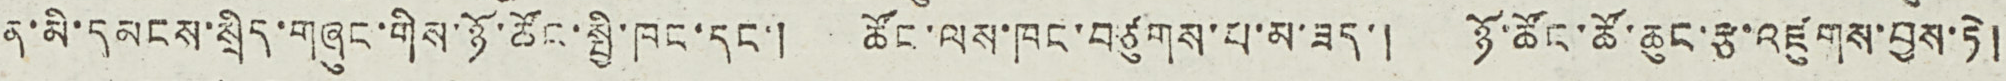ན་མི་དམངས་སྲིད་གཞུང་གིས་ཉོ་ཚོང་སྤྱི་ཁང་དང་། ཚོང་ལས་ཁང་བཙུགས་པ་མ་ཟད་། ཉོ་ཚོང་ཚོ་ཆུང་རྩ་འཛུགས་བྱས་ཏེ།
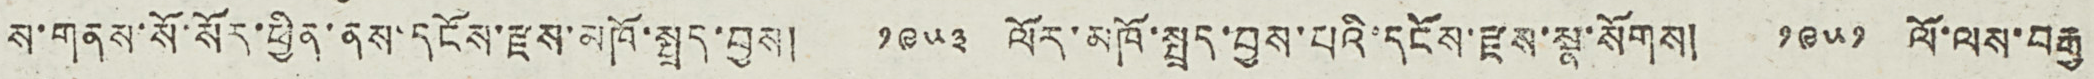ས་གནས་སོ་སོར་ཕྱིན་ནས་དངོས་རྫས་མཁོ་སྤྲད་བྱས། ༡༩༥༣ ལོར་མཁོ་སྤྲད་བྱས་པའི་དངོས་རྫས་སྣ་སོགས། ༡༩༥༡ ལོ་ལས་བརྒྱ
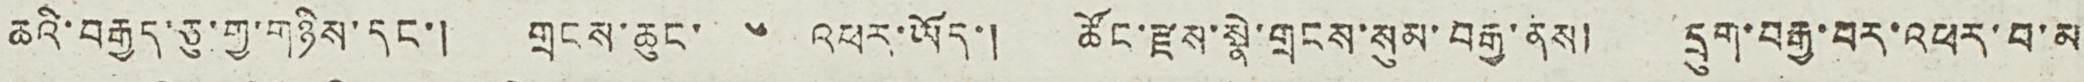ཆའི་བརྒྱད་ཅུ་གྱ་གཉིས་དང་། གྲངས་ཆུང་ ༦ འཕར་ཡོད་། ཚོང་རྫས་སྣེ་གྲངས་སུམ་བརྒྱ་ནས། དྲུག་བརྒྱ་བར་འཕར་བ་མ
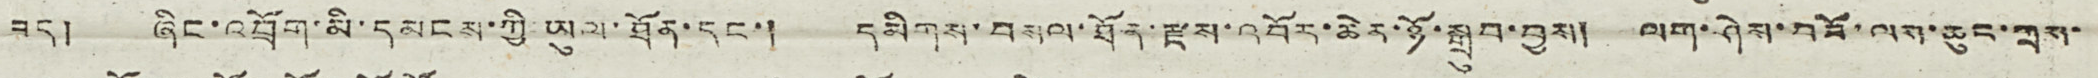ཟད། ཞིང་འབྲོག་མི་དམངས་ཀྱི་ཡུལ་ཐོན་དང་། དམིགས་བསལ་ཐོན་རྫས་འབོར་ཆེར་ཉོ་སྒྲུབ་བྱས། ལག་ཤེས་བཟོ་ལས་ཆུང་ཀྲས་
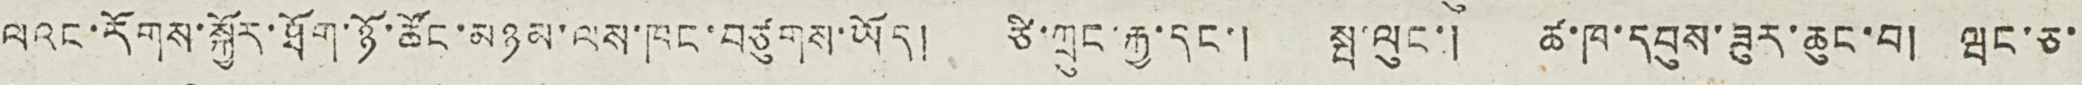ལའང་རོགས་སྐྱོར་ཐོག་ཉོ་ཚོང་མཉམ་ལས་ཁང་བཙུགས་ཡོད། ཙི་ཀྲུང་རྒྱ་དང་། སྤ་ལུང་། ཚ་ཁ་དབུས་ཟུར་ཆུང་བ། ཝང་ཅ་
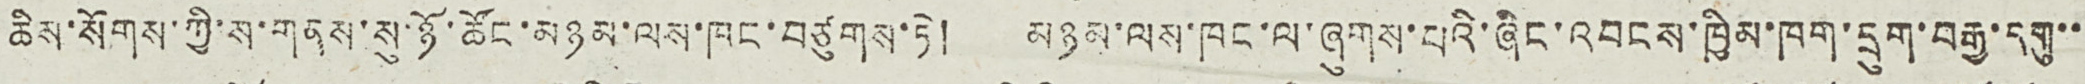ཆིས་སོགས་ཀྱི་ས་གནས་སུ་ཉོ་ཚོང་མཉམ་ལས་ཁང་བཙུགས་ཏེ། མཉམ་ལས་ཁང་ལ་ཞུགས་པའི་ཞིང་འབངས་ཁྱིམ་ཁག་དྲུག་བརྒྱ་དགུ་་
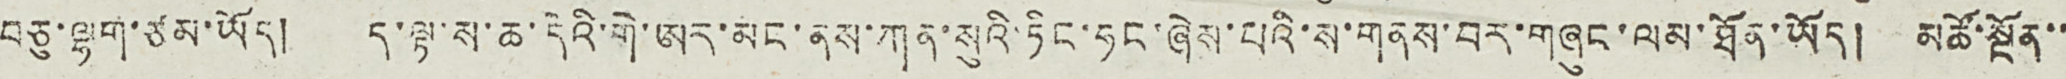བཅུ་ལྷག་ཙམ་ཡོད། ད་ལྟ་ས་ཆ་དེའི་གེ་ཨར་མང་ནས་ཀན་སུའི་ཏིང་ཧང་ཞེས་པའི་ས་གནས་བར་གཞུང་ལམ་ཐོན་ཡོད། མཚོ་སྔོན་་
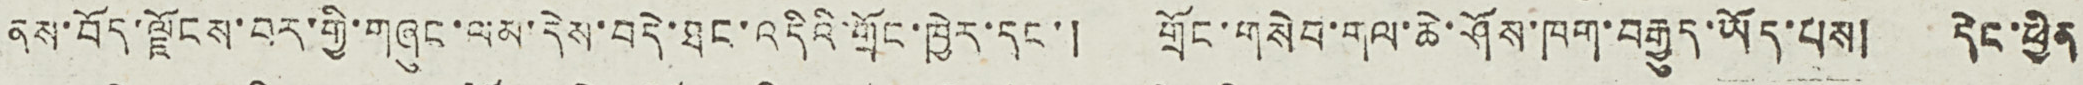ནས་བོད་ལྗོངས་བར་གྱི་གཞུང་ལམ་དེས་བདེ་ཐང་འདིའི་གྲོང་ཁྱེར་དང་། གྲོང་གསེབ་གལ་ཆེ་ཤོས་ཁག་བརྒྱུད་ཡོད་པས། དེང་ཕྱིན
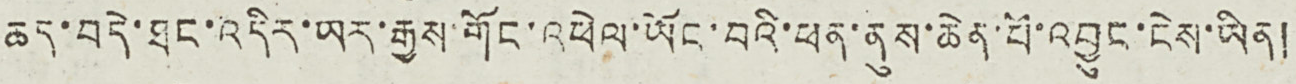ཆད་བདེ་ཐང་འདིར་ཡར་རྒྱས་གོང་འཕེལ་ཡོང་བའི་ཕན་ནུས་ཆེན་པོ་འབྱུང་ངེས་ཡིན།
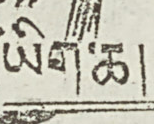ཡིག་ཆ།
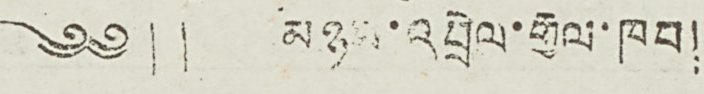༄༅། ། མཉམ་འབྲེལ་རྒྱལ་ཁབ།
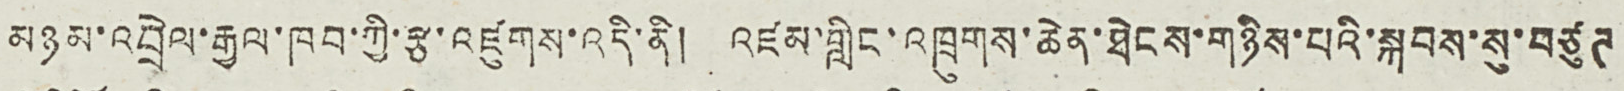མཉམ་འབྲེལ་རྒྱལ་ཁབ་ཀྱི་རྩ་འཛུགས་འདི་ནི། འཛམ་གླིང་འཁྲུགས་ཆེན་ཐེངས་གཉིས་པའི་སྐབས་སུ་བཙུཊ
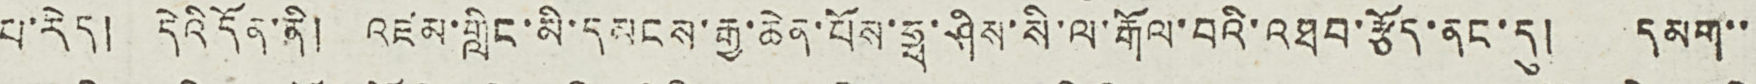པ་རེད། དེའི དོན་ནི། འཛམ་གླིང་མི་དམངས་རྒྱ་ཆེན་པོས་ཧྥ་ཤིས་སི་ལ་རྒོལ་བའི་འཐབ་རྩོད་ནང་དུ། དམག་་
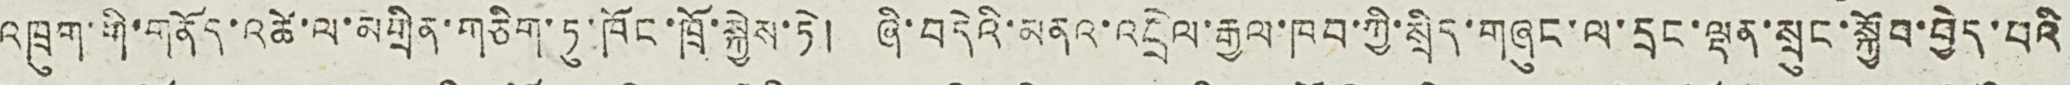འཁྲུག་གི་གནོད་འཚེ་ལ་མགྲིན་གཅིག་ཏུ་ཁོང་ཁྲོ་སྐྱེས་ཏེ། ཞི་བདེའི་མནའ་འབྲེལ་རྒྱལ་ཁབ་ཀྱི་སྲིད་གཞུང་ལ་དྲང་ལྡན་སྲུང་སྐྱོབ་བྱེད་པའི
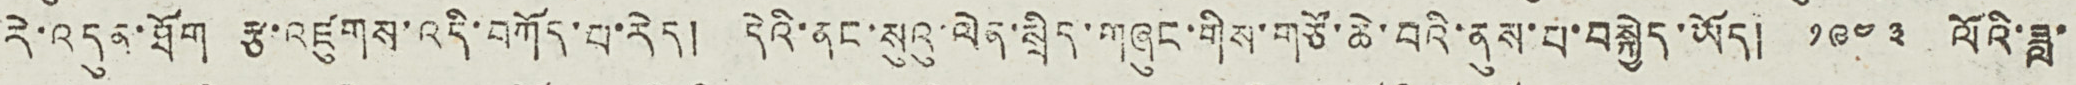རེ་འདུན་ཐོག རྩ་འཛུགས་འདི་བཀོད་པ་རེད། དེའི་ནང་སུའུ་ལེན་སྲིད་གཞུང་གིས་གཙོ་ཆེ་བའི་ནུས་པ་བསྐྱེད་ཡོད། ༡༩༤༣ ལོའི་ཟླ་
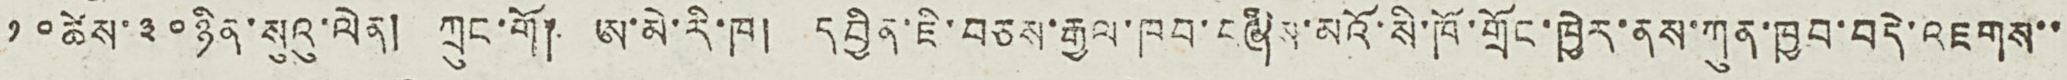༡༠ ཚེས་ ༣༠ ཉིན་སུའུ་ལེན། ཀྲུང་གོ། ཨ་མེ་རི་ཁ། དབྱིན་ཇི་བཅས་རྒྱལ་ཁབ་བཞིས་མའོ་སི་ཁོ་གྲོང་ཁྱེར་ནས་ཀུན་ཁྱབ་བདེ་འཇགས་་
